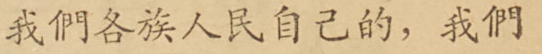我們各族人民自己的，我們
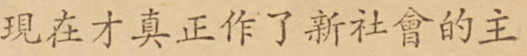現在才真正作了新社會的主
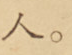人。
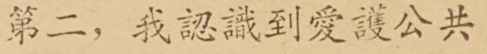第二，我認識到愛護公共
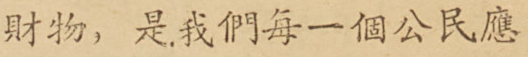財物，使我們每一個公民應
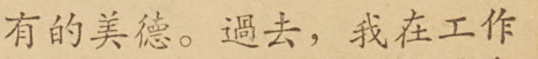有的美德。過去，我在工作
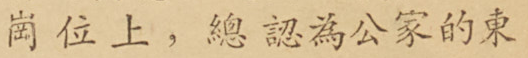崗位上，總認為公家的東
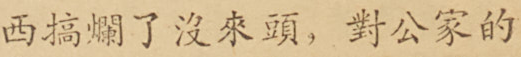西搞爛了沒來頭，對公家的
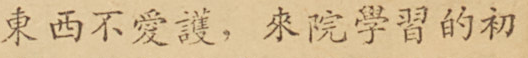東西不愛護，來院學習的初
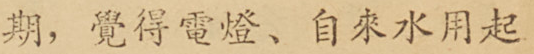期，覺得電燈、自來水用起
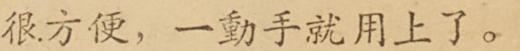很方便，一動手就用上了。
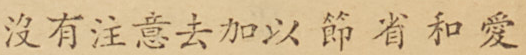沒有注意去加以節省和愛
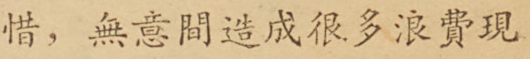惜，無意間造成很多浪費現
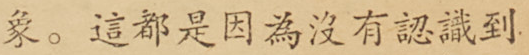象。這都是因為沒有認識到
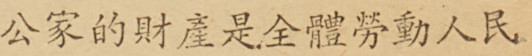公家的財產是全體勞動人民
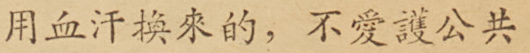用血汗換來的，不愛護公共
